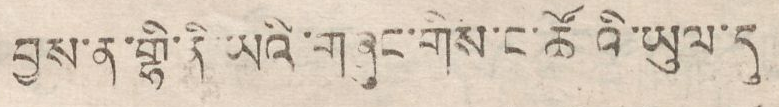བྱས་ན་གྷི་ནི་ཡའི་གཞུང་གིས་ང་ཚོའི་ཡུལ་དུ
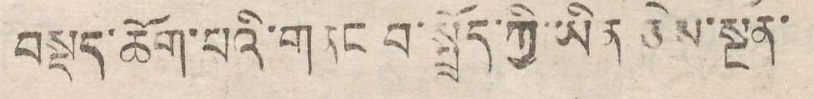བསྡད་ཆོག་པའི་གནང བ་སྤྲོད་ཀྱི་ཡིན ཅེས་སྔོན་
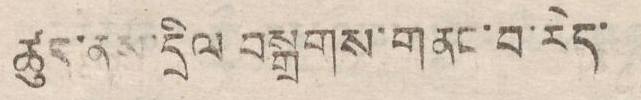ཚུད་ནས་དྲིལ བསྒྲགས་གནང་བ་རེད་
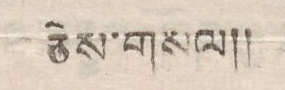ཅེས་གསལ།།
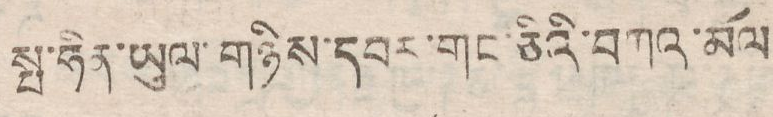སྤ་ཧིན་ཡུལ་གཉིས་དབར་གང་ཅིའི་བཀའ་མོལ
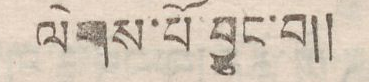ལེགས་པོ བྱུང་བ།།
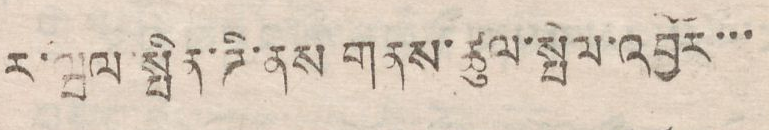ར་ཝལ་སྤིན་ཌི་ནས གནས་ཚུལ་སྤེལ་འབྱོར་་་
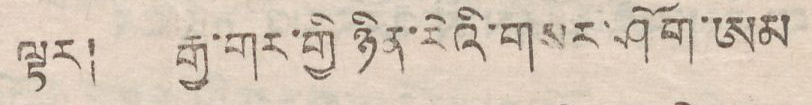ལྟར། རྒྱ་གར་གྱི ཉིན་རེའི་གསར་ཤོག་ཨམ
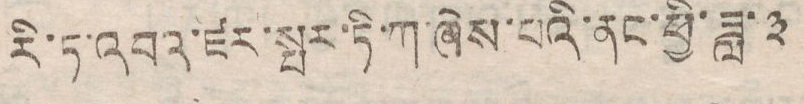རི་ཏ་འབའ་ཛར་སྤར་ཏི་ཀ་ཞེས་པའི་ནང་ཕྱི་ཟླ་ ༣
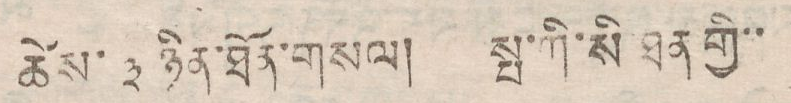ཚེས་ ༣ ཉིན་ཐོན་གསལ། སྤ་ཀི་སི་ཐན་གྱི་་
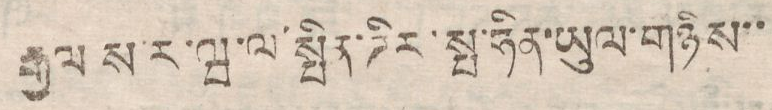རྒྱལ ས་ར་ཝ་ལ་སྤིན་ཌིར་སྤ་ཧིན་ཡུལ་གཉིས་་
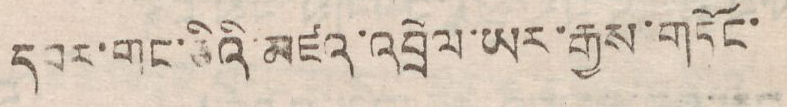དབར་གང་ཅིའི་མཛའ་འབྲེལ་ཡར་རྒྱས་གཏོང་
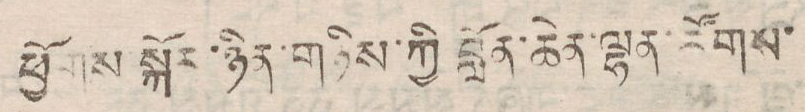ཕྱོགས་སྐོར་ཉིན་གཉིས་ཀྱི བློན་ཆེན་ལྷན་ཚོགས་
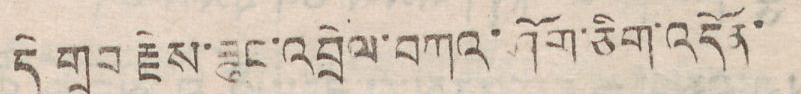དེ གྲུབ་རྗེས་ཟུང་འབྲེལ་བཀའ་ཤོག་ཅིག་འདོན་
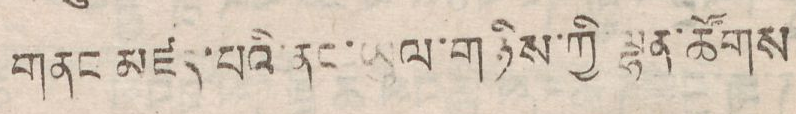གནང་མཛད་པའི་ནང་ཡུལ་གཉིས་ཀྱི་ལྷན་ཚོགས
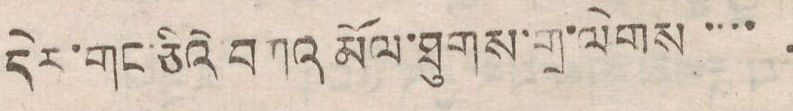དེར་གང་ཅིའི་བཀའ་མོལ་ཐུགས་གྲ་ལེགས་་་་
